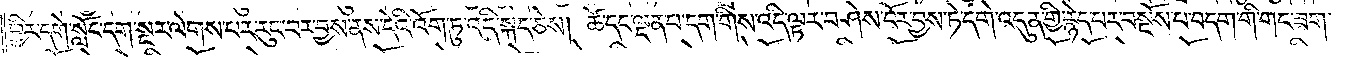ཕྱིར་དགེ་སློང་དག་སྔར་ལེགས་པར་རུང་བར་བྱས་ནས་དེའི་འོག་ཏུ་འདི་སྐད་ཅེས། ཚེ་དང་ལྡན་པ་དག་གིས་འདི་ལྟར་བཤེས་ངོར་བྱས་ཏེ་དགེ་འདུན་གྱི་རྙེད་པར་བསྔོས་པ་བདག་གིས་གང་ཟག་
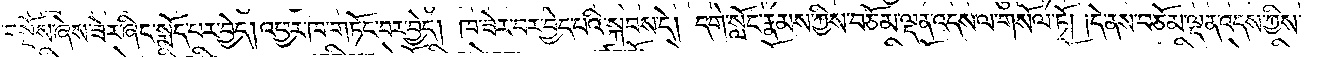བསྔོས་ཞེས་ཟེར་ཞིང་སྨོད་པར་བྱེད། འཕྱར་ཁ་གཏོང་བར་བྱེད། ཁ་ཟེར་བར་བྱེད་པའི་སྐབས་དེ། དགེ་སློང་རྣམས་ཀྱིས་བཅོམ་ལྡན་འདས་ལ་གསོལ་ཏོ། །དེ་ནས་བཅོམ་ལྡན་འདས་ཀྱིས་
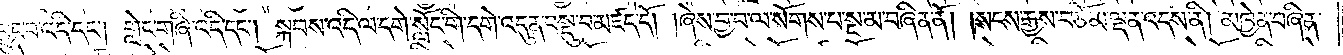བྱུང་བ་འདི་དང༌། གླེང་གཞི་འདི་དང༌། སྐབས་འདི་ལ་དགེ་སློང་གི་དགེ་འདུན་བསྡུ་བ་མཛད་དོ། །ཞེས་བྱ་བ་ལ་སོགས་པ་སྔ་མ་བཞིན་ནོ། །སངས་རྒྱས་བཅོམ་ལྡན་འདས་ནི། མཁྱེན་བཞིན་
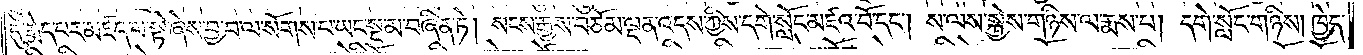དུ་རྨེད་པར་མཛད་པ་སྟེ་ཞེས་བྱ་བ་ལ་སོགས་པ་ཡང་སྔ་མ་བཞིན་ཏེ། སངས་རྒྱས་བཅོམ་ལྡན་འདས་ཀྱིས་དགེ་སློང་མཛའ་བོ་དང༌། ས་ལས་སྐྱེས་གཉིས་ལ་རྨས་པ། དགེ་སློང་གཉིས། ཁྱེད་
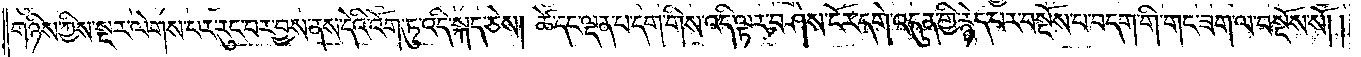གཉིས་ཀྱིས་སྔར་ལེགས་པར་རུང་བར་བྱས་ནས་དེའི་འོག་ཏུ་འདི་སྐད་ཅེས། ཚེ་དང་ལྡན་པ་དག་གིས་འདི་ལྟར་བཤེས་ངོར་དགེ་འདུན་གྱི་རྙེད་པར་བསྔོས་པ་བདག་གིས་གང་ཟག་ལ་བསྔོས་སོ། །
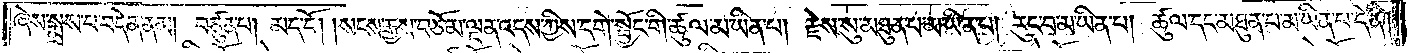ཞེས་སྨྲས་པ་བདེན་ནམ། བཙུན་པ། མད་དོ། །སངས་རྒྱས་བཅོམ་ལྡན་འདས་ཀྱིས་དགེ་སྦྱོང་གི་ཚུལ་མ་ཡིན་པ། རྗེས་སུ་མཐུན་པ་མ་ཡིན་པ། རུང་བ་མ་ཡིན་པ། ཚུལ་དང་མཐུན་པ་མ་ཡིན་པ་དེ་ནི།
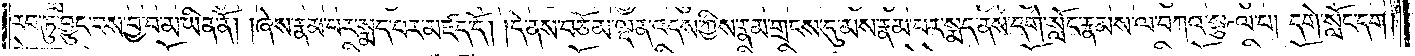རབ་ཏུ་བྱུང་བས་བྱ་བ་མ་ཡིན་ནོ། །ཞེས་རྣམ་པར་སྨད་པར་མཛད་དོ། །དེ་ནས་བཅོམ་ལྡན་འདས་ཀྱིས་རྣམ་གྲངས་དུ་མས་རྣམ་པར་སྨད་ནས་དགེ་སློང་རྣམས་ལ་བཀའ་སྩལ་པ། དགེ་སློང་དག།
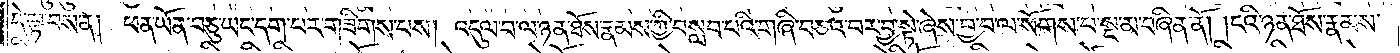དེ་ལྟ་བས་ན། ཕན་ཡོན་བཅུ་ཡང་དག་པར་གཟིགས་པས། འདུལ་བ་ལ་ཉན་ཐོས་རྣམས་ཀྱི་བསླབ་པའི་གཞི་བཅའ་བར་བྱ་སྟེ་ཞེས་བྱ་བ་ལ་སོགས་པ་སྔ་མ་བཞིན་ནོ། །ངའི་ཉན་ཐོས་རྣམས་
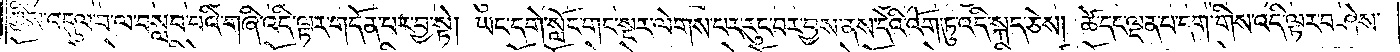ཀྱིས་འདུལ་བ་ལ་བསླབ་པའི་གཞི་འདི་ལྟར་གདོན་པར་བྱ་སྟེ། ཡང་དགེ་སློང་གང་སྔར་ལེགས་པར་རུང་བར་བྱས་ནས་དེའི་འོག་ཏུ་འདི་སྐད་ཅེས། ཚེ་དང་ལྡན་པ་དག་གིས་འདི་ལྟར་བཤེས་
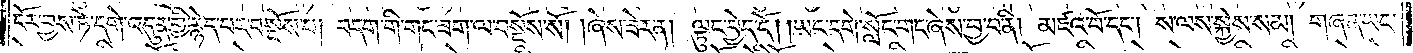ངོར་བྱས་ཏེ་དགེ་འདུན་གྱི་རྙེད་པར་བསྔོས་པ། བདག་གི་གང་ཟག་ལ་བསྔོས་སོ། །ཞེས་ཟེར་ན། ལྟུང་བྱེད་དོ། །ཡང་དགེ་སློང་གང་ཞེས་བྱ་བ་ནི། མཛའ་བོ་དང༌། ས་ལས་སྐྱེས་སམ། གཞན་ཡང་
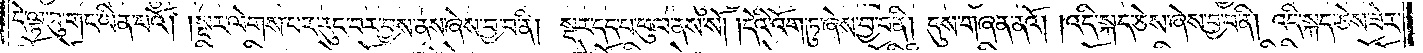དེ་ལྟ་བུ་གང་ཡིན་པའོ། །སྔར་ལེགས་པར་རུང་བར་བྱས་ནས་ཞེས་བྱ་བ་ནི། སྔར་དད་པ་ཕུལ་ནས་སོ། །དེའི་འོག་ཏུ་ཞེས་བྱ་བ་ནི། དུས་གཞན་ནའོ། །འདི་སྐད་ཅེས་ཞེས་བྱ་བ་ནི། འདི་སྐད་ཅེས་ཟེར་
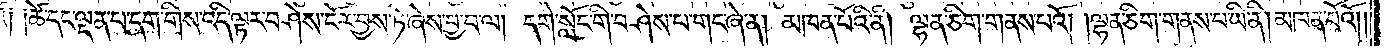ནའོ། །ཚེ་དང་ལྡན་པ་དག་གིས་འདི་ལྟར་བཤེས་ངོར་བྱས་ཏེ་ཞེས་བྱ་བ་ལ། དགེ་སློང་གི་བཤེས་པ་གང་ཞེ་ན། མཁན་པོའི་ནི། ལྷན་ཅིག་གནས་པའོ། །ལྷན་ཅིག་གནས་པ་ཡི་ནི། །མཁན་པོའོ། །
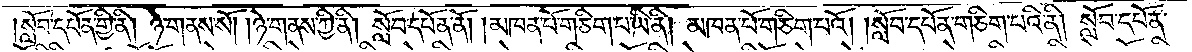སློབ་དཔོན་གྱི་ནི། ཉེ་གནས་སོ། །ཉེ་གནས་ཀྱི་ནི། སློབ་དཔོན་ནོ། །མཁན་པོ་གཅིག་པ་ཡི་ནི། མཁན་པོ་གཅིག་པའོ། །སློབ་དཔོན་གཅིག་པའི་ནི། སློབ་དཔོན་
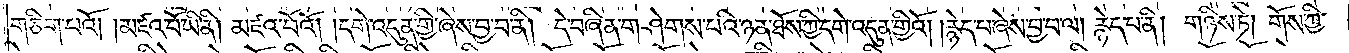གཅིག་པའོ། །མཛའ་བོ་ཡི་ནི། མཛའ་བོའོ། །དགེ་འདུན་གྱི་ཞེས་བྱ་བ་ནི། དེ་བཞིན་གཤེགས་པའི་ཉན་ཐོས་ཀྱི་དགེ་འདུན་གྱིའོ། །རྙེད་པ་ཞེས་བྱ་བ་ལ། རྙེད་པ་ནི། གཉིས་ཏེ། གོས་ཀྱི་
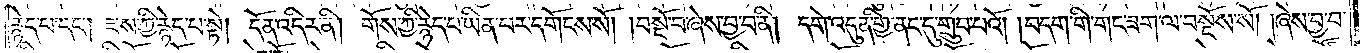རྙེད་པ་དང༌། ཟས་ཀྱི་རྙེད་པ་སྟེ། དོན་འདིར་ནི། གོས་ཀྱི་རྙེད་པ་ཡིན་པར་དགོངས་སོ། །བསྔོ་བ་ཞེས་བྱ་བ་ནི། དགེ་འདུན་གྱི་ནང་དུ་གྲུབ་པའོ། །བདག་གི་གང་ཟག་ལ་བསྔོས་སོ། །ཞེས་བྱ་བ་
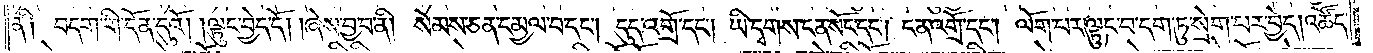ནི༑ བདག་གི་དོན་དུའོ། །ལྟུང་བྱེད་དོ། །ཞེས་བྱ་བ་ནི། སེམས་ཅན་དམྱལ་བ་དང༌། དུད་འགྲོ་དང༌། ཡི་དྭགས་ངན་སོང་དང༌། ངན་འགྲོ་དང༌། ལོག་པར་ལྟུང་བ་དག་ཏུ་སྲེག་པར་བྱེད། འཚོད་
